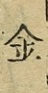金
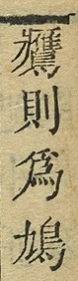鷹則為鳩
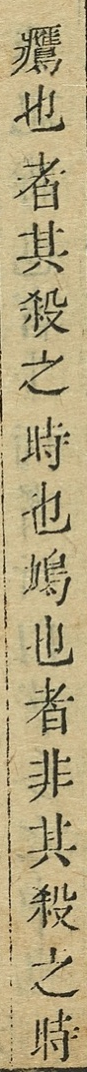鷹也者其殺之時也鳩也者非其殺之時
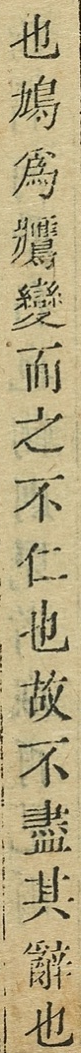也鳩為鷹變而之不仁也故不盡其辭也
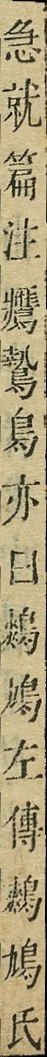急就篇注鷹鷙鳥亦曰鶆鳩左傳爽鳩氏
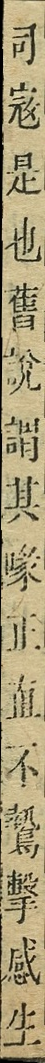司寇是也舊說謂其喙正直不鷙擊感生
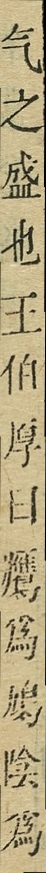气之盛也王伯厚曰鷹為鳩陰為
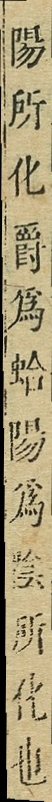陽所化爵為蛤陽為陰所化也
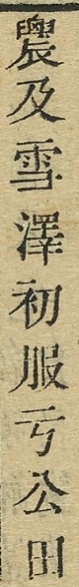農及雪澤初服亏公田
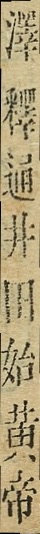澤釋通井田始黃帝
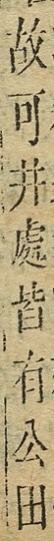故可井處皆有公田
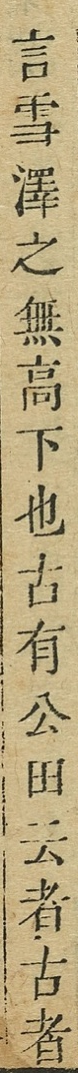言雪澤之無高下也古有公田云者古者
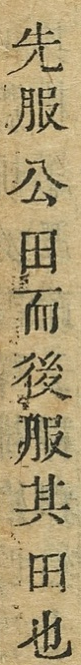先服公田而後服其田也
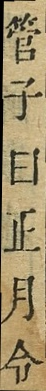管子曰正月令
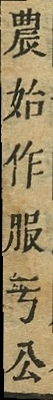農始作服亏公
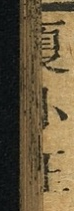夏小正
